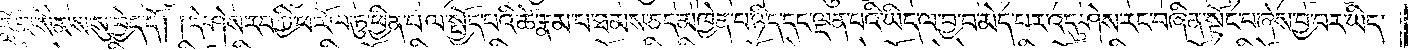རློམ་སེམས་སུ་བྱེད་དོ། །དེ་ཤེས་རབ་ཀྱི་ཕ་རོལ་ཏུ་ཕྱིན་པ་ལ་སྤྱོད་པའི་ཚེ་རྣམ་པ་ཐམས་ཅད་མཁྱེན་པ་ཉིད་དང་ལྡན་པའི་ཡིད་ལ་བྱ་བ་མེད་པར་འདུ་ཤེས་རང་བཞིན་སྟོང་པ་ཞེས་བྱ་བར་ཡིད་
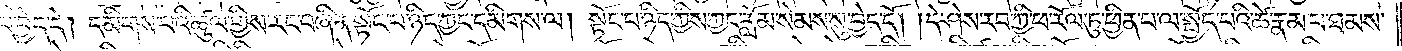ལ་བྱེད་དེ། དམིགས་པའི་ཚུལ་གྱིས་རང་བཞིན་སྟོང་པ་ཉིད་ཀྱང་དམིགས་ལ། སྟོང་པ་ཉིད་ཀྱིས་ཀྱང་རློམ་སེམས་སུ་བྱེད་དོ། །དེ་ཤེས་རབ་ཀྱི་ཕ་རོལ་ཏུ་ཕྱིན་པ་ལ་སྤྱོད་པའི་ཚེ་རྣམ་པ་ཐམས་
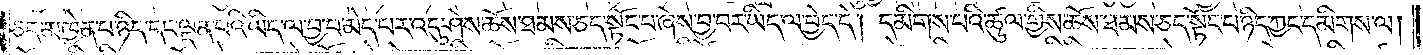ཅད་མཁྱེན་པ་ཉིད་དང་ལྡན་པའི་ཡིད་ལ་བྱ་བ་མེད་པར་འདུ་ཤེས་ཆོས་ཐམས་ཅད་སྟོང་པ་ཞེས་བྱ་བར་ཡིད་ལ་བྱེད་དེ། དམིགས་པའི་ཚུལ་གྱིས་ཆོས་ཐམས་ཅད་སྟོང་པ་ཉིད་ཀྱང་དམིགས་ལ།
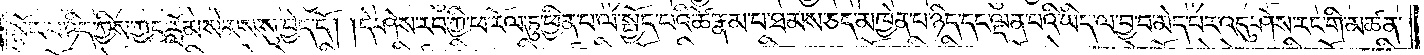སྟོང་པ་ཉིད་ཀྱིས་ཀྱང་རློམ་སེམས་སུ་བྱེད་དོ། །དེ་ཤེས་རབ་ཀྱི་ཕ་རོལ་ཏུ་ཕྱིན་པ་ལ་སྤྱོད་པའི་ཚེ་རྣམ་པ་ཐམས་ཅད་མཁྱེན་པ་ཉིད་དང་ལྡན་པའི་ཡིད་ལ་བྱ་བ་མེད་པར་འདུ་ཤེས་རང་གི་མཚན་
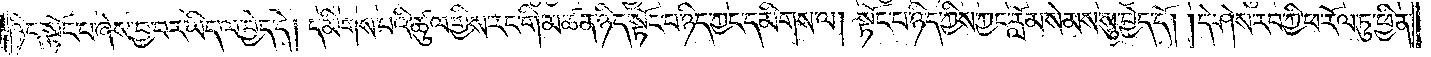ཉིད་སྟོང་པ་ཞེས་བྱ་བར་ཡིད་ལ་བྱེད་དེ། དམིགས་པའི་ཚུལ་གྱིས་རང་གི་མཚན་ཉིད་སྟོང་པ་ཉིད་ཀྱང་དམིགས་ལ། སྟོང་པ་ཉིད་ཀྱིས་ཀྱང་རློམ་སེམས་སུ་བྱེད་དོ། །དེ་ཤེས་རབ་ཀྱི་ཕ་རོལ་ཏུ་ཕྱིན་
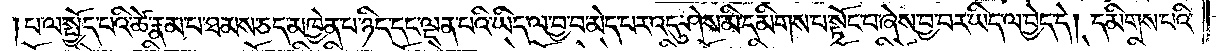པ་ལ་སྤྱོད་པའི་ཚེ་རྣམ་པ་ཐམས་ཅད་མཁྱེན་པ་ཉིད་དང་ལྡན་པའི་ཡིད་ལ་བྱ་བ་མེད་པར་འདུ་ཤེས་མི་དམིགས་པ་སྟོང་པ་ཞེས་བྱ་བར་ཡིད་ལ་བྱེད་དེ། དམིགས་པའི་
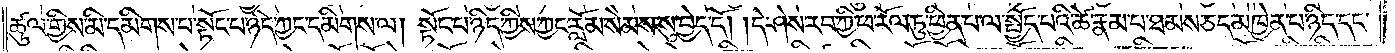ཚུལ་གྱིས་མི་དམིགས་པ་སྟོང་པ་ཉིད་ཀྱང་དམིགས་ལ། སྟོང་པ་ཉིད་ཀྱིས་ཀྱང་རློམ་སེམས་སུ་བྱེད་དོ། །དེ་ཤེས་རབ་ཀྱི་ཕ་རོལ་ཏུ་ཕྱིན་པ་ལ་སྤྱོད་པའི་ཚེ་རྣམ་པ་ཐམས་ཅད་མཁྱེན་པ་ཉིད་དང་
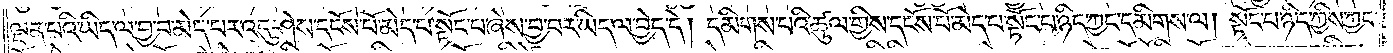ལྡན་པའི་ཡིད་ལ་བྱ་བ་མེད་པར་འདུ་ཤེས་དངོས་པོ་མེད་པ་སྟོང་པ་ཞེས་བྱ་བར་ཡིད་ལ་བྱེད་དེ། དམིགས་པའི་ཚུལ་གྱིས་དངོས་པོ་མེད་པ་སྟོང་པ་ཉིད་ཀྱང་དམིགས་ལ། སྟོང་པ་ཉིད་ཀྱིས་ཀྱང་
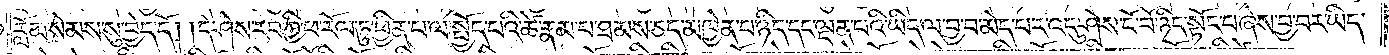རློམ་སེམས་སུ་བྱེད་དོ། །དེ་ཤེས་རབ་ཀྱི་ཕ་རོལ་ཏུ་ཕྱིན་པ་ལ་སྤྱོད་པའི་ཚེ་རྣམ་པ་ཐམས་ཅད་མཁྱེན་པ་ཉིད་དང་ལྡན་པའི་ཡིད་ལ་བྱ་བ་མེད་པར་འདུ་ཤེས་ངོ་བོ་ཉིད་སྟོང་པ་ཞེས་བྱ་བར་ཡིད་
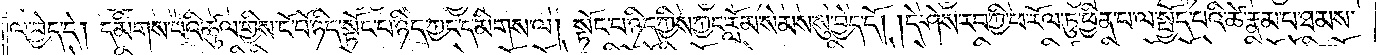ལ་བྱེད་དེ། དམིགས་པའི་ཚུལ་གྱིས་ངོ་བོ་ཉིད་སྟོང་པ་ཉིད་ཀྱང་དམིགས་ལ། སྟོང་པ་ཉིད་ཀྱིས་ཀྱང་རློམ་སེམས་སུ་བྱེད་དོ། །དེ་ཤེས་རབ་ཀྱི་ཕ་རོལ་ཏུ་ཕྱིན་པ་ལ་སྤྱོད་པའི་ཚེ་རྣམ་པ་ཐམས་
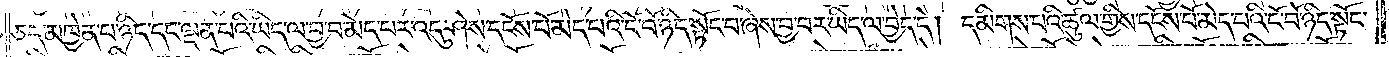ཅད་མཁྱེན་པ་ཉིད་དང་ལྡན་པའི་ཡིད་ལ་བྱ་བ་མེད་པར་འདུ་ཤེས་དངོས་པོ་མེད་པའི་ངོ་བོ་ཉིད་སྟོང་པ་ཞེས་བྱ་བར་ཡིད་ལ་བྱེད་དེ། དམིགས་པའི་ཚུལ་གྱིས་དངོས་པོ་མེད་པའི་ངོ་བོ་ཉིད་སྟོང་
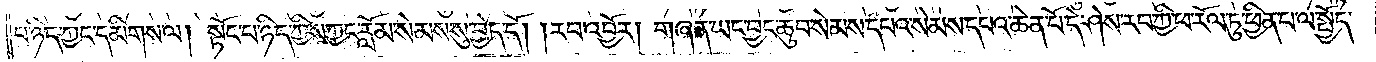པ་ཉིད་ཀྱང་དམིགས་ལ། སྟོང་པ་ཉིད་ཀྱིས་ཀྱང་རློམ་སེམས་སུ་བྱེད་དོ། །རབ་འབྱོར། གཞན་ཡང་བྱང་ཆུབ་སེམས་དཔའ་སེམས་དཔའ་ཆེན་པོ་དེ་ཤེས་རབ་ཀྱི་ཕ་རོལ་ཏུ་ཕྱིན་པ་ལ་སྤྱོད་
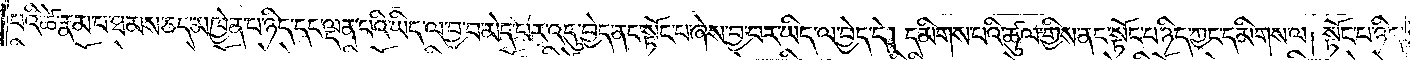པའི་ཚེ་རྣམ་པ་ཐམས་ཅད་མཁྱེན་པ་ཉིད་དང་ལྡན་པའི་ཡིད་ལ་བྱ་བ་མེད་པར་འདུ་བྱེད་ནང་སྟོང་པ་ཞེས་བྱ་བར་ཡིད་ལ་བྱེད་དེ། དམིགས་པའི་ཚུལ་གྱིས་ནང་སྟོང་པ་ཉིད་ཀྱང་དམིགས་ལ། སྟོང་པ་ཉིད་
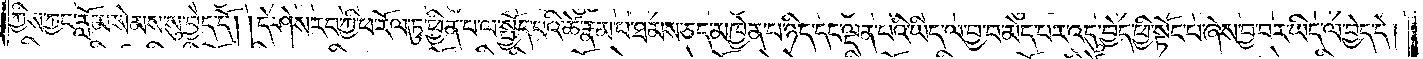ཀྱིས་ཀྱང་རློམ་སེམས་སུ་བྱེད་དོ། །དེ་ཤེས་རབ་ཀྱི་ཕ་རོལ་ཏུ་ཕྱིན་པ་ལ་སྤྱོད་པའི་ཚེ་རྣམ་པ་ཐམས་ཅད་མཁྱེན་པ་ཉིད་དང་ལྡན་པའི་ཡིད་ལ་བྱ་བ་མེད་པར་འདུ་བྱེད་ཕྱི་སྟོང་པ་ཞེས་བྱ་བར་ཡིད་ལ་བྱེད་དེ།
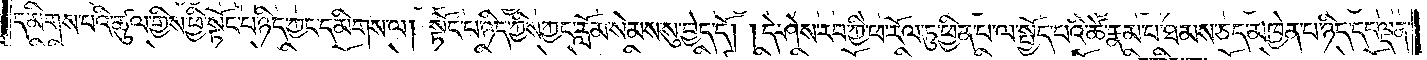དམིགས་པའི་ཚུལ་གྱིས་ཕྱི་སྟོང་པ་ཉིད་ཀྱང་དམིགས་ལ། སྟོང་པ་ཉིད་ཀྱིས་ཀྱང་རློམ་སེམས་སུ་བྱེད་དོ། །དེ་ཤེས་རབ་ཀྱི་ཕ་རོལ་ཏུ་ཕྱིན་པ་ལ་སྤྱོད་པའི་ཚེ་རྣམ་པ་ཐམས་ཅད་མཁྱེན་པ་ཉིད་དང་ལྡན་
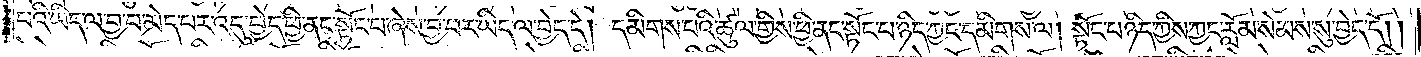པའི་ཡིད་ལ་བྱ་བ་མེད་པར་འདུ་བྱེད་ཕྱི་ནང་སྟོང་པ་ཞེས་བྱ་བར་ཡིད་ལ་བྱེད་དེ། དམིགས་པའི་ཚུལ་གྱིས་ཕྱི་ནང་སྟོང་པ་ཉིད་ཀྱང་དམིགས་ལ། སྟོང་པ་ཉིད་ཀྱིས་ཀྱང་རློམ་སེམས་སུ་བྱེད་དོ། །
